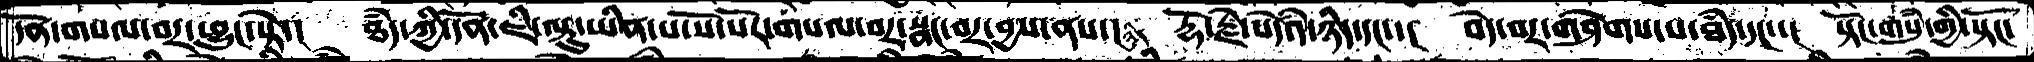དོན་གསལ་བར་ཕྱུང་སྟེ་།  ཐཾད་ཀྱི་དོན་ཇི་ལྟུ་ཡིན་པ་སོ་སོར་གསལ་བར་སྣང་བར་བྱས་ནས་། ཉིད རྡོ་རྗེ་སེདཾའ་ཉིད་དང་་།  བདེ་བར་གཤེགས་པ་ཐཾད་དང་་།  སྟོང་གསུཾ་གྱི་སྟོང་
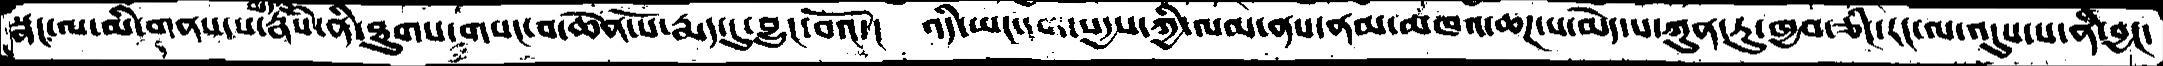སྣང་ལ་མི་གནས་པ་རྣཾས་ནི་ཐུགས་གསང་བ་ཆེན་པོ་རྨད་དུ་བྱུང་བའོ་།  འདི་ཡང་དག་སདྱས་ཀྱི་ལམ་ནས་ནམ་མཁའ་ཆཌ་པ་མེད་པ་ཀུན་ཏུ་ཁྱབ་ཅིང་རང་ལ་འདུས་པ་ནི་བྱང་
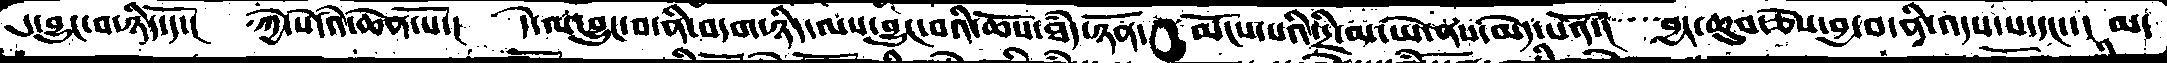དུ་བྱུང་བ་ཉིད་དོ་།  ཀྱེ་སེདཾའ་ཆེན་པོ་།  དེ་ལ་བྱུང་བ་ནི་བདག་ཉིད་ལས་བྱུང་བའི་ཆོས་ཐཾད་ཉོན་མོངས་པའི་དྲི་མ་ཡེ་ནས་མེད་པའོ་། བྱང་ཆུབ་ཅེས་བྱ་བ་ནི་འདས་པ་དང་་།  མ་
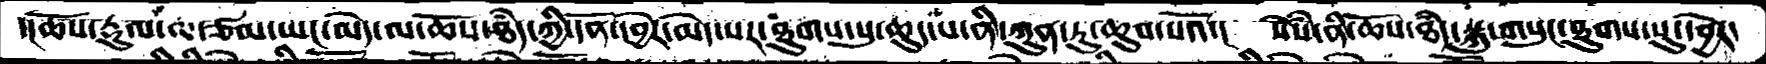་།ཆོས་རྡུལ་ལ་ཙམ་ཡང་མེད་ལ་ཆོས་ཐཾད་ཀྱི་དོན་དབྱེར་མེད་པར་ཐུགས་སུ་ཆུད་པ་ནི་ཀུན་ཏུ་ཆུབ་པའོ་།  སེཾས་ནི་ཆོས་ཐཾད་སྐུ་གསུང་ཐུགས་སུ་དབྱེར་
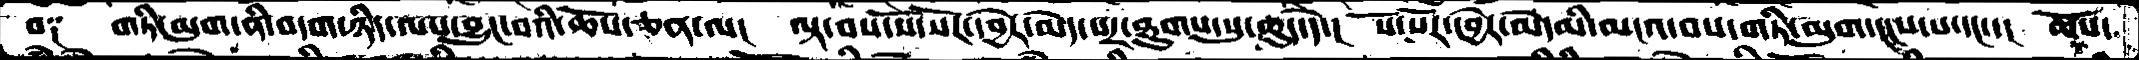བ༑  གཏི་མུག་ནི་བདག་ཉིད་ལས་བྱུང་བའི་ཆོས་ཅན་ལ།  ལྟ་བས་སོ་སོར་དབྱེར་མེད་པར་ཐུགས་སུ་ཆུད་དེ་།  སོ་སོར་དབྱེར་མེད་མི་མངའ་བས་གཏི་མུག་།།།ས་པ་དང་་།  ཆོས་
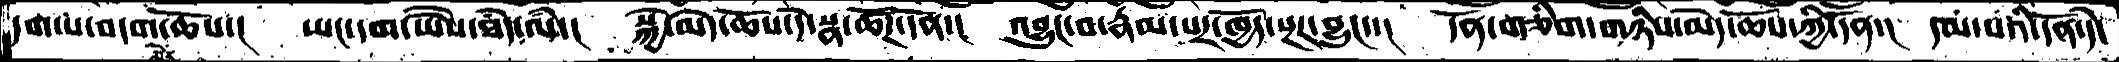དག་པ་བདག་མེད་ཆོས་།   ཡང་དག་ཡཻས་ཐཾད་ལཾ་།  སྐྱེ་མེད་ཆོས་དེ་སྣ་ཚོཌ་དོན་།  འབྱུང་བ་རྣམ་པར་ཁྱོད་སྔར་བྱུང་་།  དོན་གཅིག་གཉིས་མེད་ཆོས་ཀྱི་དོན་།  དམ་པའི་དོན་དེ་
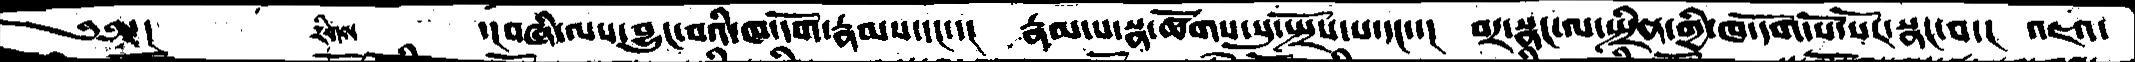༄༅་།       རིགས   ་།བཞི་ལས་བྱུང་བའི་ཁ་དོག་རྣམས་དང་་།  རྣམ་པ་སྣ་ཚོགས་སུ་སྤྲོས་པ་དང་་།  བར་སྣང་ལ་སྤྲིན་གྱི་ཁ་དོག་སོ་སོར་སྣང་བ་།  འཇའ་
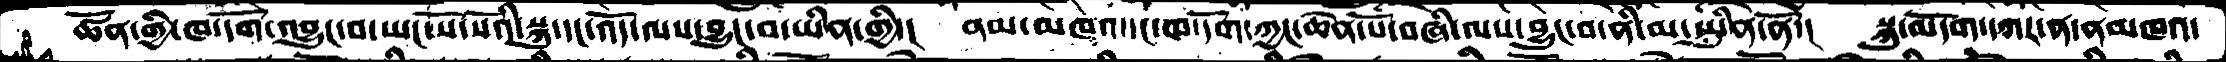ཚོན་གྱི་ཁ་དོག་འབྱུང་བ་ཡང་སོ་སོའི་སྐུ་དང་འོད་ལས་བྱུང་བ་ཡིན་གྱི་།  ནམ་མཁའ་དང་ཁ་དོག་ཀྱང་ཆེན་པོ་བཞི་ལས་བྱུང་བ་ནི་མ་ཡིན་ནོ་།  སྐུ་མདོག་དཀར་ན་ནམཁའ་
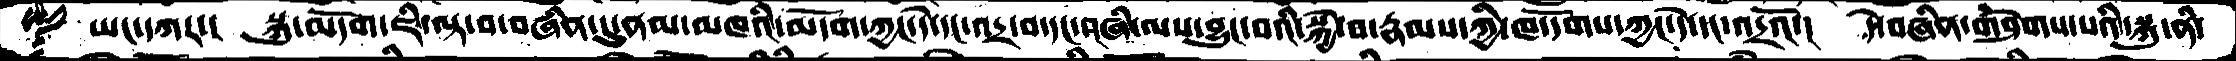ཡང་དཀར་།  སྐུ་མདོག་ཇི་ལྟ་བ་བཞིན་དུ་ནམ་མཁའི་མདོག་ཀྱང་དེ་དང་འདྲ་བ་དང་བཞི་ལས་བྱུང་བའི་སྐྱེ་བ་རྣམས་ཀྱི་ཁ་དོགས་ཀྱང་དེ་དང་འདྲའོ་།  དེ་བཞིན་གཤེགས་པའི་སྐུ་ནི་
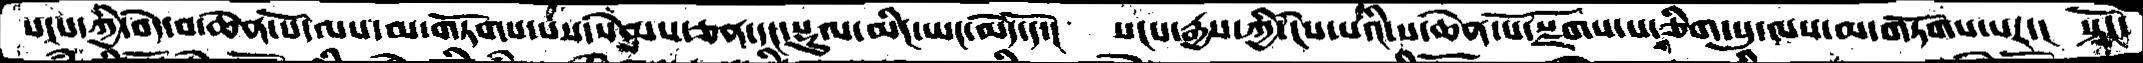སངས་ཀྱི་བདེ་བ་ཆེན་པོ་ལས་མ་གཏོགས་པས་སེམས་ཅན་དང་སྡུལ་མིང་ཡང་མེད་དོ་།  སངས་རྒྱས་ཀྱི་ངེས་པའི་ས་ཆེན་པོ་སྫོགས་པ་གཅིག་པུ་ལས་མ་གཏོགས་པར་། སྟོང་
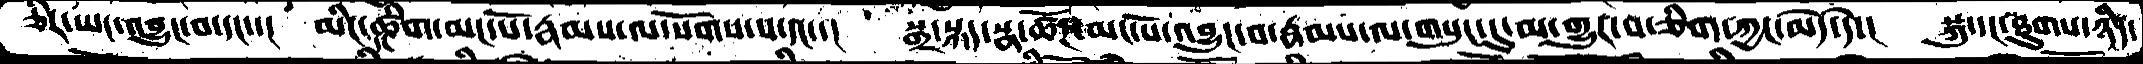ཅིར་ཡང་འབྱུང་བ་དང་་།  མིང་དང་ཚིག་མང་པོ་རྣམས་ལ་སོགས་པ་དང་་།  སྒྲ་སྐད་སྣ་ཚོཌ་མང་པོ་འབྱུང་བ་རྣམས་ལ་གསུང་དུ་མ་གྱུར་བ་ཅིག་ཀྱང་མེད་དེ་།  སྐུ་དང་ཐུགས་ཉིད་
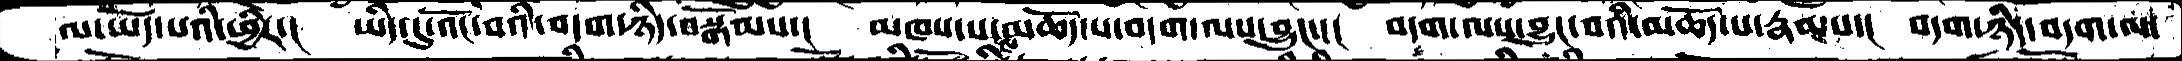ལ་ཡོད་པའི་ཕྱིར་།  ཡིད་དུ་འོང་བའི་བདག་ཉིད་བསྒོམས་།  མཁས་པས་མཆོད་པ་བདག་ལས་བྱུང་་།  བདག་ལས་བྱུང་བའི་མཆོད་པ་རྣམས་།  བདག་ཉིད་བདག་ལ་
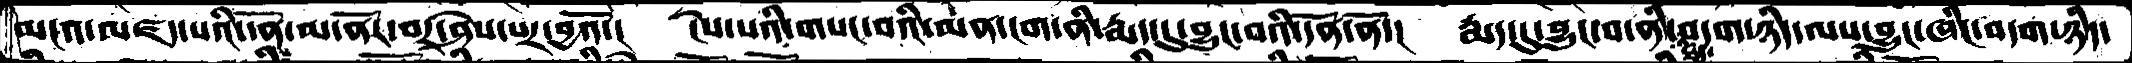མངའ་མཛད་པའི་དོན་མ་ནོར་བར་ཤེས་པར་བྱའོ་།  ངེས་པའི་གསང་བའི་མན་ངག་ནི་རྨད་དུ་བྱུང་བའི་དོན་ནོ་།  རྨད་དུ་བྱུང་བ་ནི་ཐཾད་བདག་ཉིད་ལས་བྱུང་ཞིང་བདག་ཉིད་
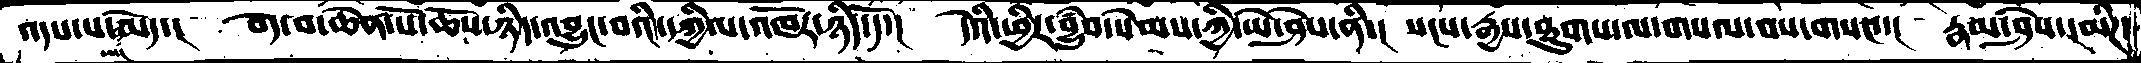འདས་པ་ཡང་མེད་། བདེ་བ་ཆེན་པོ་ཆོས་ཉིད་འབྱུང་བའི་དཀྱིལ་འཁོར་ཉིད་དོ་། དེའི་ཕྱིར་བྱུཾབ་སེམས་ཀྱི་ཡེ་ཤེས་ནི་། སངས་རྒྱས་ཐུགས་ལ་གསལ་བས་གསང་་། རྣམ་ཤེས་དམིཌ་
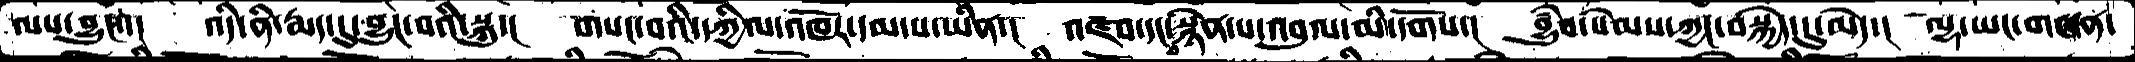ལས་བྱུང་་། འདི་ནི་རྨད་དུ་བྱུང་བའི་སྐུ་། གསང་བའི་དཀྱིལ་འཁོར་དམ་པ་ཡིན་། འཛབ་དང་བསྙེན་པ་འབུལ་མི་དགོས་། བྱུཾབ་སེམས་ཀྱང་བསྐྱེད་དུ་མེད་། ལྷ་ཡང་གཞན་
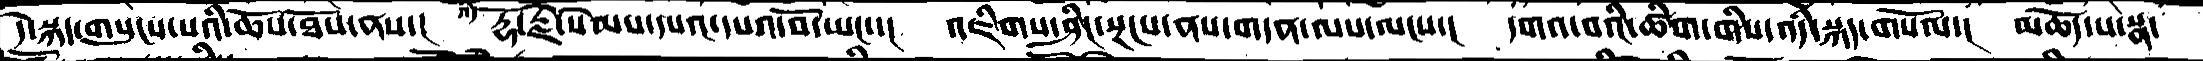དེ་སྐད་གསུངས་པའི་ཆོས་ཐོས་ནས་།  རྡོ་རྗེ་སེམས་དཔའ་དཔའ་བོ་ཡང་་།  འཇིགས་ཤིང་སྔངས་ནས་གདན་ལས་ལངས་།  དགའ་བའི་ཚིག་གིས་འདི་སྐད་གསོལ་།  མཆོད་པ་སྣ་
